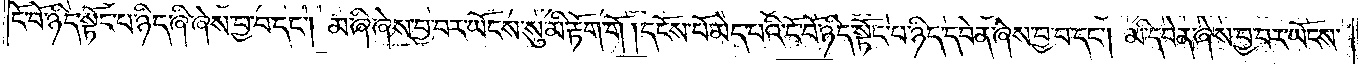ངོ་བོ་ཉིད་སྟོང་པ་ཉིད་ཞི་ཞེས་བྱ་བ་དང༌། མ་ཞི་ཞེས་བྱ་བར་ཡོངས་སུ་མི་རྟོག་གོ །དངོས་པོ་མེད་པའི་ངོ་བོ་ཉིད་སྟོང་པ་ཉིད་དབེན་ཞེས་བྱ་བ་དང༌། མི་དབེན་ཞེས་བྱ་བར་ཡོངས་
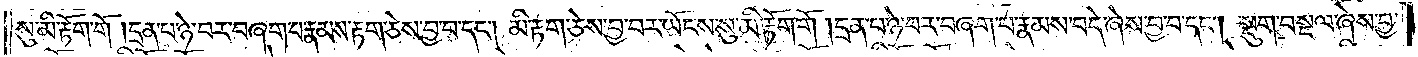སུ་མི་རྟོག་གོ །དྲན་པ་ཉེ་བར་བཞག་པ་རྣམས་རྟག་ཅེས་བྱ་བ་དང༌། མི་རྟག་ཅེས་བྱ་བར་ཡོངས་སུ་མི་རྟོག་གོ །དྲན་པ་ཉེ་བར་བཞག་པ་རྣམས་བདེ་ཞེས་བྱ་བ་དང༌། སྡུག་བསྔལ་ཞེས་བྱ་
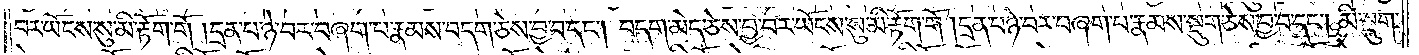བར་ཡོངས་སུ་མི་རྟོག་གོ །དྲན་པ་ཉེ་བར་བཞག་པ་རྣམས་བདག་ཅེས་བྱ་བ་དང༌། བདག་མེད་ཅེས་བྱ་བར་ཡོངས་སུ་མི་རྟོག་གོ །དྲན་པ་ཉེ་བར་བཞག་པ་རྣམས་སྡུག་ཅེས་བྱ་བ་དང༌། མི་སྡུག་
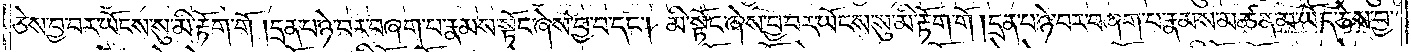ཅེས་བྱ་བར་ཡོངས་སུ་མི་རྟོག་གོ །དྲན་པ་ཉེ་བར་བཞག་པ་རྣམས་སྟོང་ཞེས་བྱ་བ་དང༌། མི་སྟོང་ཞེས་བྱ་བར་ཡོངས་སུ་མི་རྟོག་གོ །དྲན་པ་ཉེ་བར་བཞག་པ་རྣམས་མཚན་མ་ཡོད་ཅེས་བྱ་
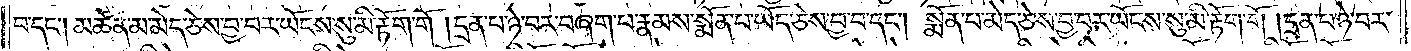བ་དང༌། མཚན་མ་མེད་ཅེས་བྱ་བར་ཡོངས་སུ་མི་རྟོག་གོ །དྲན་པ་ཉེ་བར་བཞག་པ་རྣམས་སྨོན་པ་ཡོད་ཅེས་བྱ་བ་དང༌། སྨོན་པ་མེད་ཅེས་བྱ་བར་ཡོངས་སུ་མི་རྟོག་གོ །དྲན་པ་ཉེ་བར་
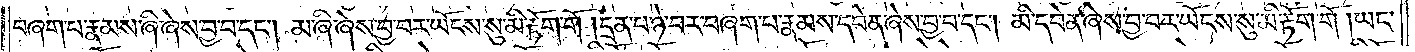བཞག་པ་རྣམས་ཞི་ཞེས་བྱ་བ་དང༌། མ་ཞི་ཞེས་བྱ་བར་ཡོངས་སུ་མི་རྟོག་གོ །དྲན་པ་ཉེ་བར་བཞག་པ་རྣམས་དབེན་ཞེས་བྱ་བ་དང༌། མི་དབེན་ཞེས་བྱ་བར་ཡོངས་སུ་མི་རྟོག་གོ །ཡང་
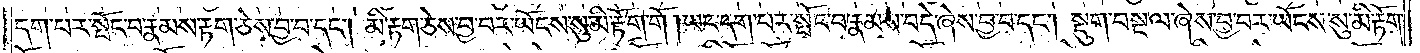དག་པར་སྤོང་བ་རྣམས་རྟག་ཅེས་བྱ་བ་དང༌། མི་རྟག་ཅེས་བྱ་བར་ཡོངས་སུ་མི་རྟོག་གོ །ཡང་དག་པར་སྤོང་བ་རྣམས་བདེ་ཞེས་བྱ་བ་དང༌། སྡུག་བསྔལ་ཞེས་བྱ་བར་ཡོངས་སུ་མི་རྟོག་
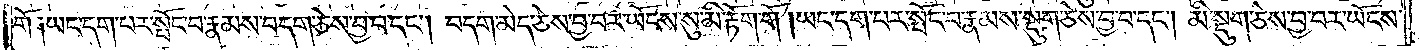གོ ༑ཡང་དག་པར་སྤོང་བ་རྣམས་བདག་ཅེས་བྱ་བ་དང༌། བདག་མེད་ཅེས་བྱ་བར་ཡོངས་སུ་མི་རྟོག་གོ །ཡང་དག་པར་སྤོང་བ་རྣམས་སྡུག་ཅེས་བྱ་བ་དང༌། མི་སྡུག་ཅེས་བྱ་བར་ཡོངས་
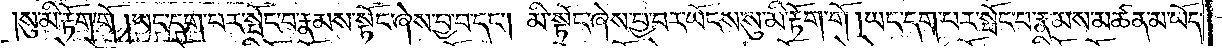སུ་མི་རྟོག་གོ །ཡང་དག་པར་སྤོང་བ་རྣམས་སྟོང་ཞེས་བྱ་བ་དང༌། མི་སྟོང་ཞེས་བྱ་བར་ཡོངས་སུ་མི་རྟོག་གོ །ཡང་དག་པར་སྤོང་བ་རྣམས་མཚན་མ་ཡོད་
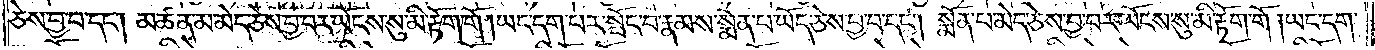ཅེས་བྱ་བ་དང༌། མཚན་མ་མེད་ཅེས་བྱ་བར་ཡོངས་སུ་མི་རྟོག་གོ །ཡང་དག་པར་སྤོང་བ་རྣམས་སྨོན་པ་ཡོད་ཅེས་བྱ་བ་དང༌། སྨོན་པ་མེད་ཅེས་བྱ་བར་ཡོངས་སུ་མི་རྟོག་གོ །ཡང་དག་
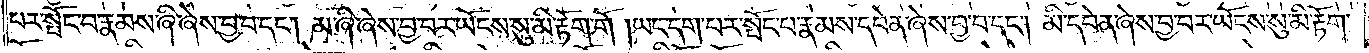པར་སྤོང་བ་རྣམས་ཞི་ཞེས་བྱ་བ་དང༌། མ་ཞི་ཞེས་བྱ་བར་ཡོངས་སུ་མི་རྟོག་གོ །ཡང་དག་པར་སྤོང་བ་རྣམས་དབེན་ཞེས་བྱ་བ་དང༌། མི་དབེན་ཞེས་བྱ་བར་ཡོངས་སུ་མི་རྟོག་
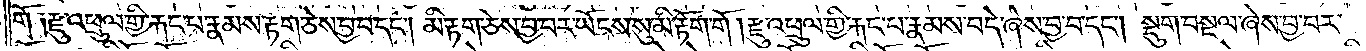གོ ༑རྫུ་འཕྲུལ་གྱི་རྐང་པ་རྣམས་རྟག་ཅེས་བྱ་བ་དང༌། མི་རྟག་ཅེས་བྱ་བར་ཡོངས་སུ་མི་རྟོག་གོ །རྫུ་འཕྲུལ་གྱི་རྐང་པ་རྣམས་བདེ་ཞེས་བྱ་བ་དང༌། སྡུག་བསྔལ་ཞེས་བྱ་བར་
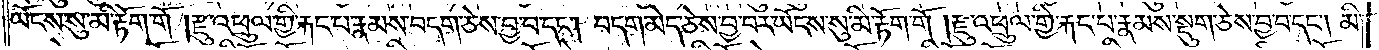ཡོངས་སུ་མི་རྟོག་གོ །རྫུ་འཕྲུལ་གྱི་རྐང་པ་རྣམས་བདག་ཅེས་བྱ་བ་དང༌། བདག་མེད་ཅེས་བྱ་བར་ཡོངས་སུ་མི་རྟོག་གོ །རྫུ་འཕྲུལ་གྱི་རྐང་པ་རྣམས་སྡུག་ཅེས་བྱ་བ་དང༌། མི་
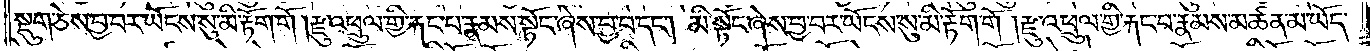སྡུག་ཅེས་བྱ་བར་ཡོངས་སུ་མི་རྟོག་གོ །རྫུ་འཕྲུལ་གྱི་རྐང་པ་རྣམས་སྟོང་ཞེས་བྱ་བ་དང༌། མི་སྟོང་ཞེས་བྱ་བར་ཡོངས་སུ་མི་རྟོག་གོ །རྫུ་འཕྲུལ་གྱི་རྐང་པ་རྣམས་མཚན་མ་ཡོད་
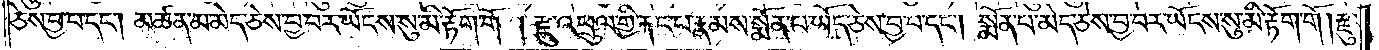ཅེས་བྱ་བ་དང༌། མཚན་མ་མེད་ཅེས་བྱ་བར་ཡོངས་སུ་མི་རྟོག་གོ །རྫུ་འཕྲུལ་གྱི་རྐང་པ་རྣམས་སྨོན་པ་ཡོད་ཅེས་བྱ་བ་དང༌། སྨོན་པ་མེད་ཅེས་བྱ་བར་ཡོངས་སུ་མི་རྟོག་གོ །རྫུ་
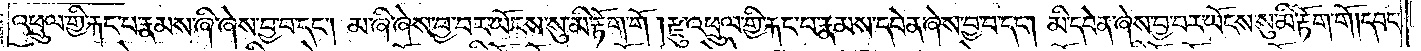འཕྲུལ་གྱི་རྐང་པ་རྣམས་ཞི་ཞེས་བྱ་བ་དང༌། མ་ཞི་ཞེས་བྱ་བར་ཡོངས་སུ་མི་རྟོག་གོ །རྫུ་འཕྲུལ་གྱི་རྐང་པ་རྣམས་དབེན་ཞེས་བྱ་བ་དང༌། མི་དབེན་ཞེས་བྱ་བར་ཡོངས་སུ་མི་རྟོག་གོ །དབང་
